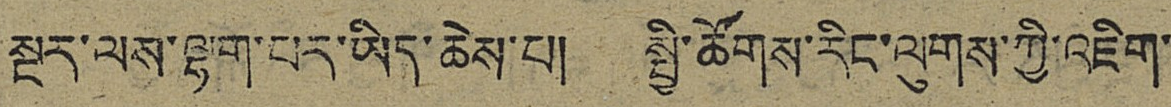སྔར་ལས་ལྷག་པར་ཡིད་ཆེས་པ། སྤྱི་ཚོགས་རིང་ལུགས་ཀྱི་འཇིག་
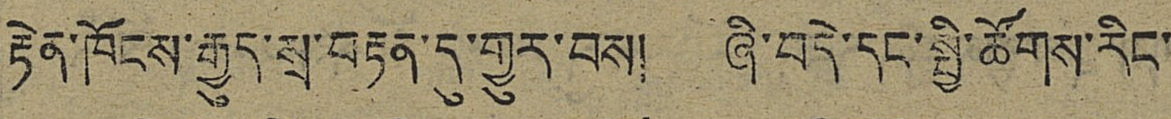རྟེན་ཁོངས་རྒྱུད་སྲ་བརྟན་དུ་གྱུར་བས། ཞི་བདེ་དང་སྤྱི་ཚོགས་རིང་
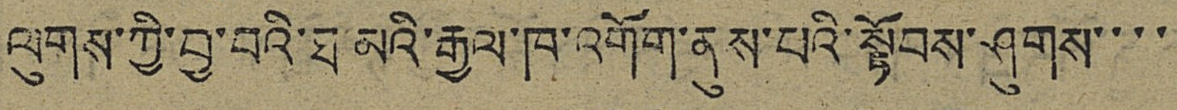ལུགས་ཀྱི་བྱ་བའི་ཐ་མའི་རྒྱལ་ཁ་འགོག་ནུས་པའི་སྟོབས་ཤུགས་་་་
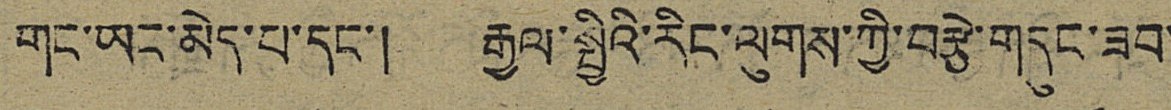གང་ཡང་མེད་པ་དང་། རྒྱལ་སྤྱིའི་རིང་ལུགས་ཀྱི་བརྩེ་གདུང་ཟབ་
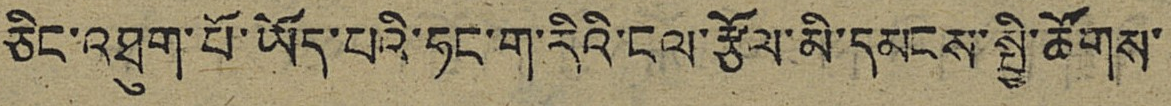ཅིང་འཐུག་པོ་ཡོད་པའི་ཧང་ག་རིའི་ངལ་རྩོལ་མི་དམངས་སྤྱི་ཚོགས་
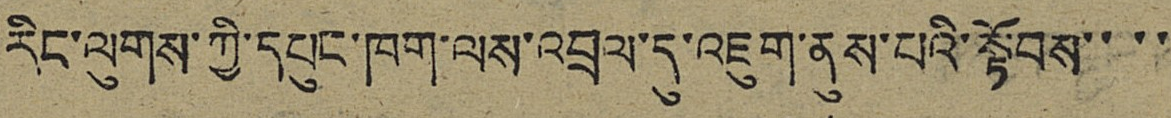རིང་ལུགས་ཀྱི་དཔུང་ཁག་ལས་འབྲལ་དུ་འཇུག་ནུས་པའི་སྟོབས་་་་
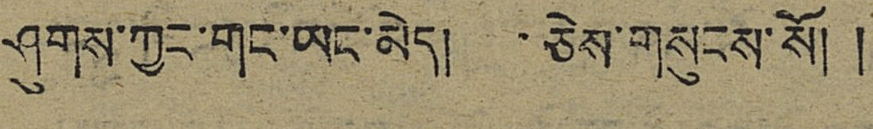ཤུགས་ཀྱང་གང་ཡང་མེད། ཅེས་གསུངས་སོ། །
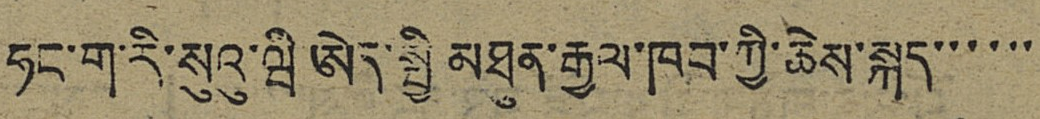ཧང་ག་རི་སུའུ་ཝི ཨེད་སྤྱི་མཐུན་རྒྱལ་ཁབ་ཀྱི་ཆེས་སྐད་་་་་་
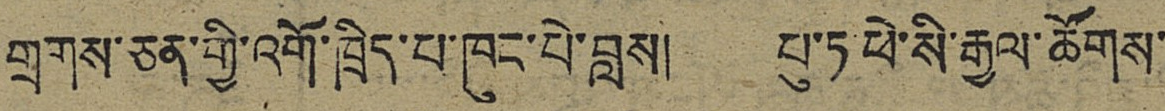གྲགས་ཅན་གྱི་འགོ་ཁྲིད་པ་ཁུང་པེ་བླས། པུ་ཏ་ཕེ་སི་རྒྱལ་ཚོགས་
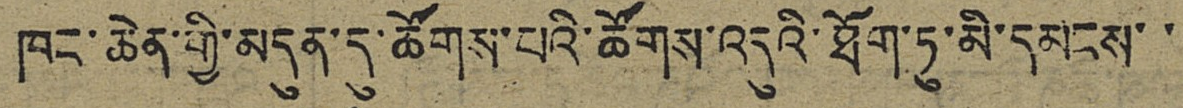ཁང་ཆེན་གྱི་མདུན་དུ་ཚོགས་པའི་ཚོགས་འདུའི་ཐོག་ཏུ་མི་དམངས་་
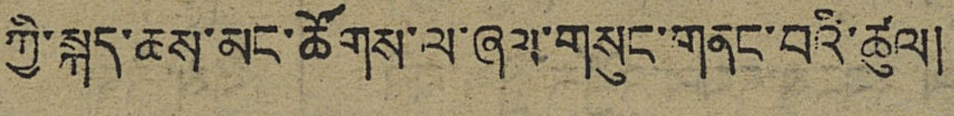ཀྱི་སྐད་ཆས་མང་ཚོགས་ལ་ཞལ་གསུང་གནང་བའི་ཚུལ།
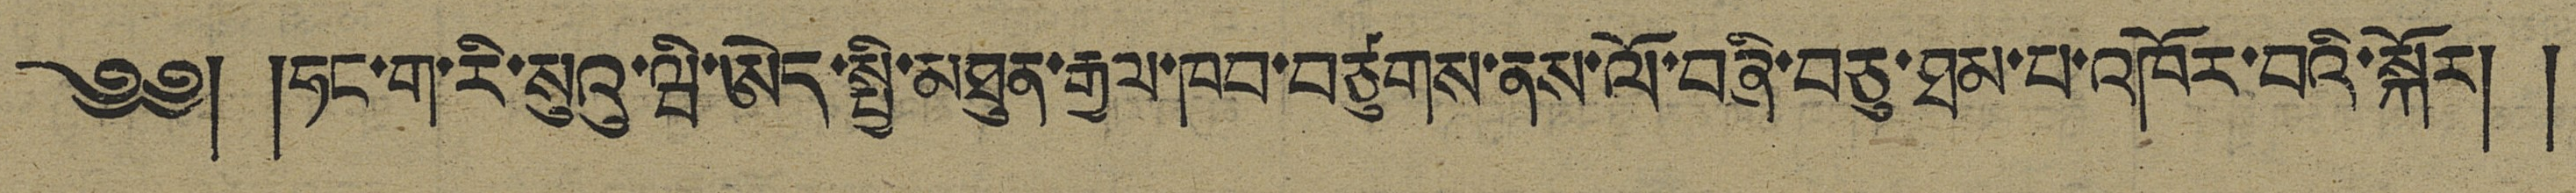༄༅། །ཧང་ག་རི་སུའུ་ཝི་ཨེད་སྤྱི་མཐུན་རྒྱལ་ཁབ་བཙུགས་ནས་ལོ་བཞི་བཅུ་ཐམ་པ་འཁོར་བའི་སྐོར། །
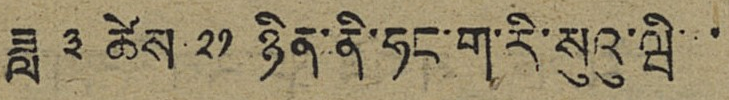ཟླ ༣ ཚེས ༢༡ ཉིན་ནི་ཧང་ག་རི་སུའུ་ཝི་་
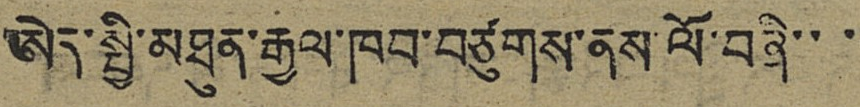ཨེད་སྤྱི་མཐུན་རྒྱལ་ཁབ་བཙུགས་ནས་ལོ་བཞི་་་
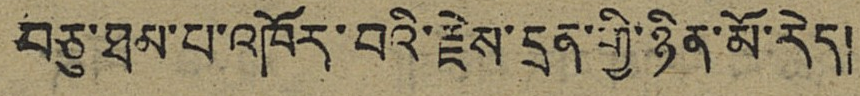བཅུ་ཐམ་པ་འཁོར་བའི་རྗེས་དྲན་གྱི་ཉིན་མོ་རེད།
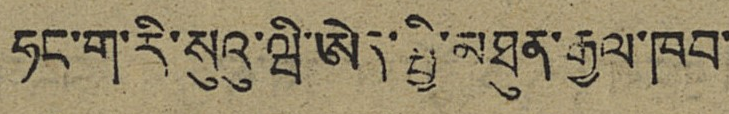ཧང་ག་རི་སུའུ་ཝི་ཨེད་སྤྱི་མཐུན་རྒྱལ་ཁབ་
